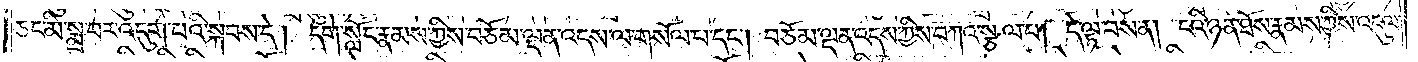ཅང་མི་སྨྲ་བར་འདུག་པའི་སྐབས་དེ། དགེ་སློང་རྣམས་ཀྱིས་བཅོམ་ལྡན་འདས་ལ་གསོལ་བ་དང༌། བཅོམ་ལྡན་འདས་ཀྱིས་བཀའ་སྩལ་པ། དེ་ལྟ་བས་ན། ངའི་ཉན་ཐོས་རྣམས་ཀྱིས་འདུལ་
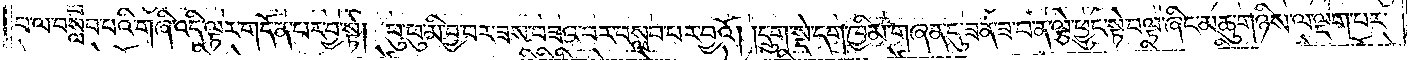བ་ལ་བསླབ་པའི་གཞི་འདི་ལྟར་གདོན་པར་བྱ་སྟེ། ཕུ་ཕུ་མི་བྱ་བར་ཟས་བཟའ་བར་བསླབ་པར་བྱའོ། །དྲུག་སྡེ་དག་ཁྱིམ་གཞན་དུ་ཟན་ཟ་བ་ན་ལྕེ་ཕྱུང་སྟེ་བལྟ་ཞིང་མཆུ་གཉིས་ལ་ལྡག་པར་
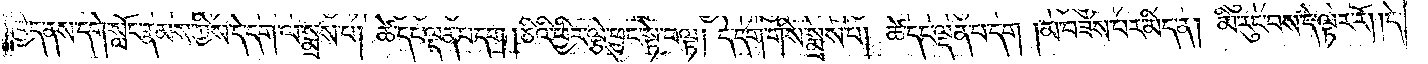བྱེད་ནས་དགེ་སློང་རྣམས་ཀྱིས་དེ་དག་ལ་སྨྲས་པ། ཚེ་དང་ལྡན་པ་དག །ཅིའི་ཕྱིར་ལྕེ་ཕྱུང་སྟེ་བལྟ། དེ་དག་གིས་སྨྲས་པ། ཚེ་དང་ལྡན་པ་དག །མ་བཟས་པར་མིད་ན། མི་རུང་བས་དེ་ལྟར་རོ། །དེ་
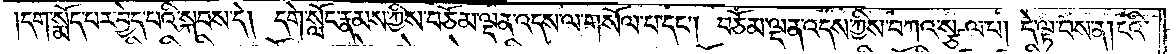དག་སྨོད་པར་བྱེད་པའི་སྐབས་དེ། དགེ་སློང་རྣམས་ཀྱིས་བཅོམ་ལྡན་འདས་ལ་གསོལ་པ་དང༌། བཅོམ་ལྡན་འདས་ཀྱིས་བཀའ་སྩལ་པ། དེ་ལྟ་བས་ན། ངའི་
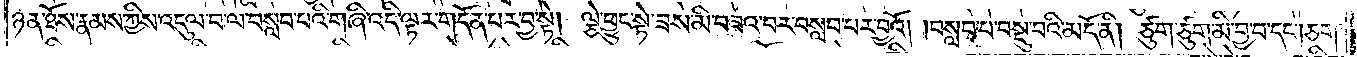ཉན་ཐོས་རྣམས་ཀྱིས་འདུལ་བ་ལ་བསླབ་པའི་གཞི་འདི་ལྟར་གདོན་པར་བྱ་སྟེ། ལྕེ་ཕྱུང་སྟེ་ཟས་མི་བཟའ་བར་བསླབ་པར་བྱའོ། །བསླབ་པ་བསྡུ་བའི་མདོ་ནི། ཙུག་ཙུག་མི་བྱ་བ་དང༌། ཅག་
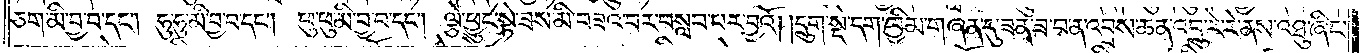ཅག་མི་བྱ་བ་དང༌། ཧུ་ཧུ་མི་བྱ་བ་དང༌། ཕུ་ཕུ་མི་བྱ་བ་དང༌། ལྕེ་ཕྱུང་སྟེ་ཟས་མི་བཟའ་བར་བསླབ་པར་བྱའོ། །དྲུག་སྡེ་དག་ཁྱིམ་གཞན་དུ་ཟན་ཟ་བ་ན་འབྲས་ཆན་འབྲུ་རེ་རེ་ནས་འཐུ་ཞིང་
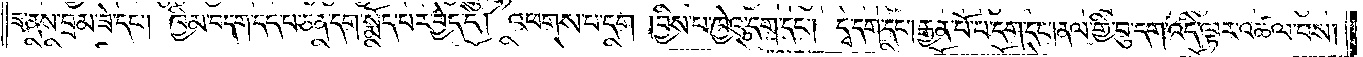ཟ་ནས་བྲམ་ཟེ་དང༌། ཁྱིམ་བདག་དད་པ་ཅན་དག་སྨོད་པར་བྱེད་དེ། འཕགས་པ་དག །བྱིས་པ་ཁྱེའུ་དག་དང༌། དྭ་དག་དང༌། རྒྱན་པོ་པ་དག་དང༌། ནལ་གྱི་བུ་དག་འདི་ལྟར་འཚལ་བས།
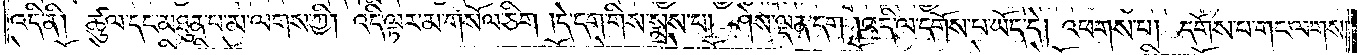འདི་ནི། ཚུལ་དང་མཐུན་པ་མ་ལགས་ཀྱི། འདི་ལྟར་མ་གསོལ་ཅིག །དེ་དག་གིས་སྨྲས་པ། ཤེས་ལྡན་དག །འདི་ལ་དགོས་པ་ཡོད་དེ། འཕགས་པ། དགོས་པ་གང་ལགས་
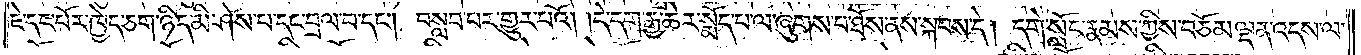ཇེ་དང་པོར་ཁྱེད་ཅག་ཉིད་མི་ཤེས་པ་དང་བྲལ་བ་དང༌། བསླབ་པར་གྱུར་པའོ། །དེ་དག་རྒྱ་ཆེར་སྨོད་པ་ལ་ཞུགས་པ་ཐོས་ནས་སྐབས་དེ། དགེ་སློང་རྣམས་ཀྱིས་བཅོམ་ལྡན་འདས་ལ་
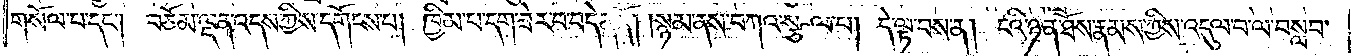གསོལ་པ་དང༌། བཅོམ་ལྡན་འདས་ཀྱིས་དགོངས་པ། ཁྱིམ་པ་དག་ཟེར་བ་བདེན་ནོ། །སྙམ་ནས་བཀའ་སྩལ་པ། དེ་ལྟ་བས་ན། ངའི་ཉན་ཐོས་རྣམས་ཀྱིས་འདུལ་བ་ལ་བསླབ་
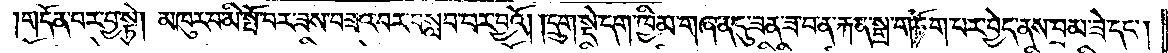གདོན་པར་བྱ་སྟེ། མཁུར་བ་མི་སྤོ་བར་ཟས་བཟའ་བར་བསླབ་པར་བྱའོ། །དྲུག་སྡེ་དག་ཁྱིམ་གཞན་དུ་ཟན་ཟ་བ་ན་རྐན་སྒྲ་གཏོག་པར་བྱེད་ནས་བྲམ་ཟེ་དང༌།
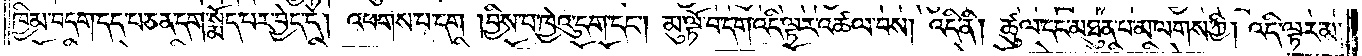ཁྱིམ་བདག་དད་པ་ཅན་དག་སྨོད་པར་བྱེད་དེ། འཕགས་པ་དག །བྱིས་པ་ཁྱེའུ་དག་དང༌། མུ་ལྟོ་བ་དག་འདི་ལྟར་འཚལ་བས། འདི་ནི། ཚུལ་དང་མཐུན་པ་མ་ལགས་ཀྱི། འདི་ལྟར་མ་
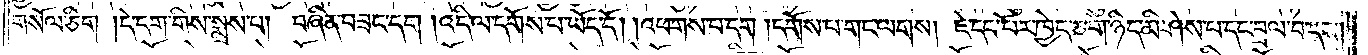གསོལ་ཅིག །དེ་དག་གིས་སྨྲས་པ། བཞིན་བཟང་དག །འདི་ལ་དགོས་པ་ཡོད་དོ། །འཕགས་པ་དག །དགོས་པ་གང་ལགས། ཇེ་དང་པོར་ཁྱེད་ཅག་ཉིད་མི་ཤེས་པ་དང་བྲལ་བ་དང༌།
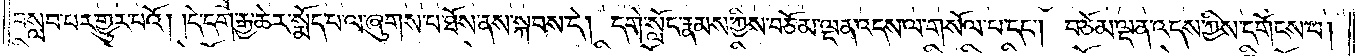བསླབ་པར་གྱུར་པའོ། །དེ་དག་རྒྱ་ཆེར་སྨོད་པ་ལ་ཞུགས་པ་ཐོས་ནས་སྐབས་དེ། དགེ་སློང་རྣམས་ཀྱིས་བཅོམ་ལྡན་འདས་ལ་གསོལ་པ་དང༌། བཅོམ་ལྡན་འདས་ཀྱིས་དགོངས་པ།
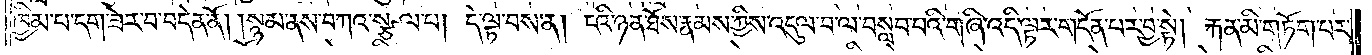ཁྱིམ་པ་དག་ཟེར་བ་བདེན་ནོ། །སྙམ་ནས་བཀའ་སྩལ་པ། དེ་ལྟ་བས་ན། ངའི་ཉན་ཐོས་རྣམས་ཀྱིས་འདུལ་བ་ལ་བསླབ་པའི་གཞི་འདི་ལྟར་གདོན་པར་བྱ་སྟེ། རྐན་མི་གཏོག་པར་
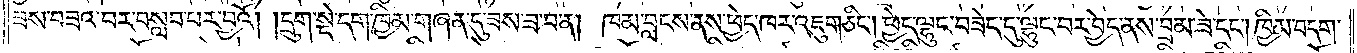ཟས་བཟའ་བར་བསླབ་པར་བྱའོ། །དྲུག་སྡེ་དག་ཁྱིམ་གཞན་དུ་ཟས་ཟ་བ་ན། ཁམ་བླངས་ནས་ཕྱེད་ཁར་འཇུག་ཅིང༌། ཕྱེད་ལྷུང་བཟེད་དུ་ལྷུང་བར་བྱེད་ནས་བྲམ་ཟེ་དང༌། ཁྱིམ་བདག་
